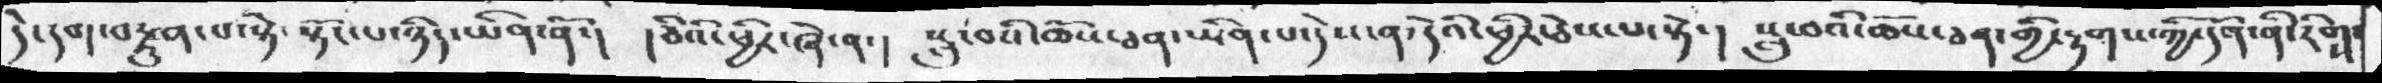དེ་དག་བསྫུན་པ་སྟེ་སྟོང་པ་ཉིད་ཡིན་ནོ་།   ། ཅིའི་ཕྱིར་ཞེ་ན་།   སླུ་བའི་ཆོས་ཅན་ཡིན་པ་དེས་ན་དེའི་ཕྱིར་ཅེས་པ་སྟེ་།   སླུ་བའི་ཆོས་ཅན་གྱི་རྟགས་ཀྱི་དོན་ནི་རིགས་
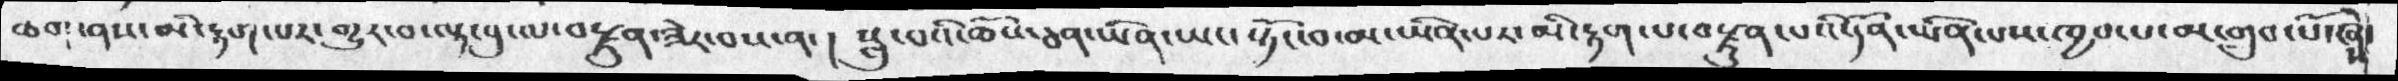ཆག་ནས་མི་རྟག་པར་གྱུར་བ་ལྟ་བུ་ལ་བརྫུན་ཟེར་བས་ན་།   སླུ་བའི་ཆོས་ཅན་ཡིན་ཡང་སྟོང་བ་མ་ཡིན་པར་མི་རྟག་པ་བརྫུན་པའི་དོན་ཡིན་པས་ཁྱབ་པ་མ་གྲུབ་པོ་ཞེས་
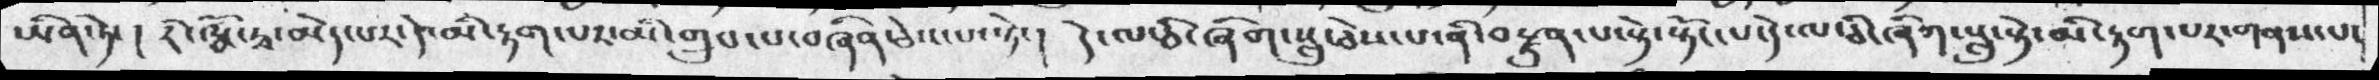ཡིན་ཏེ་  ། རི་ལྕོ་རྭ་མེད་པར་དེ་མི་རྟག་པར་མི་གྲུབ་པ་བཞིན་ཅེས་པ་སྟེ་།   དེ་ལ་ཅི་ཞིག་སྲུ་ཅེས་པ་ནི་བརྗུན་པ་སྟེ་སྟོང་པ་དེ་ལ་ཅི་ཞིག་སླུ་སྟེ་མི་རྟག་པར་གནས་པར་
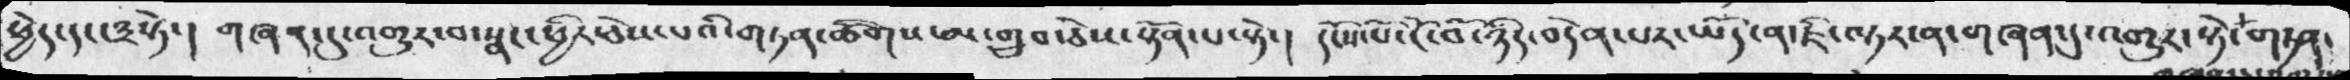ཕྱེད་དང་༣སྟེ་།   གཞན་དུ་འགྱུར་བ་སྣང་ཕྱིར་ཅེས་པའི་གཏན་ཚིགས་མ་གྲུབ་ཅེས་སྟོན་པ་སྟ་།   དངོས་པོ་ངོ་བོ་ཉིད་བདེན་པར་ཡོད་ན་ཇི་ལྟར་ན་གཞན་དུ་འགྱུར་སྟེ་གཏན་
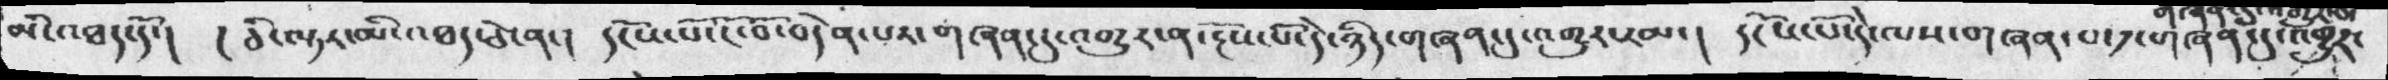མི་འཐད་དོ་།   ། ཅི་ལྟར་མི་འཐད་ཅེ་ན་།   དངོས་པོ་ངོ་བོ་བདེན་པར་གཞན་དུ་འགྱུར་ན་རྔོས་པོ་དེ་ཉིད་གཞན་དུ་འགྱུར་རམ་།   དངོས་པོ་དེ་ལས་གཞན་པ་༡་གཞན་དུ་འགྱུར་
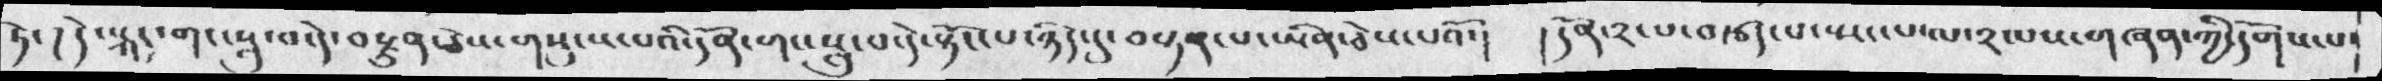ཏེ་ ། དེ་སྐད་གང་སླུ་བ་དེ་བརྫུན་ཅེས་གསུངས་པའི་དོན་གང་སླུ་བ་དེ་སྟོང་པ་ཉིད་དུ་བསྟན་པ་ཡིན་ཅེས་པའོ་།  ། དོན་༢་པ་བརྩད་པ་སྤང་པ་ལ་༢་པས་གཞན་ཀྱི་དགོས་པ་།
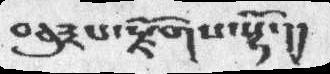བཅུ༣པ་རྫོགས་སྷོ་།།
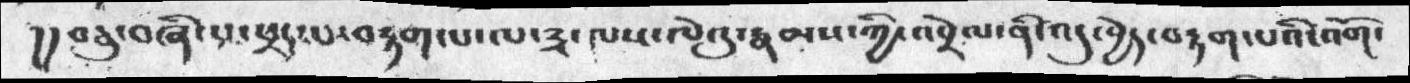།།བཅུ་བཞི་པ་ཕྲད་པ་བརྟག་པ་ལ་༣་ལས་ལེའུ་རྣམས་ཀྱི་འབྲེལ་ནི་འདུ་བྱེད་བརྟག་པའི་འོག་
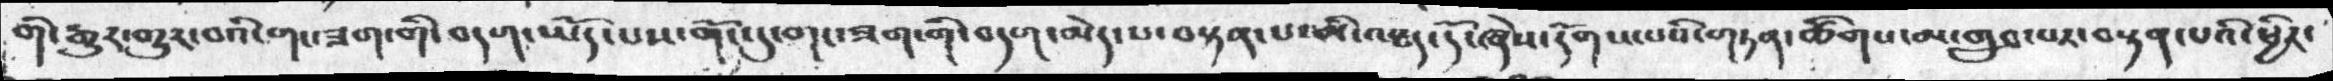གི་རྒྱུར་གྱུར་བའི་གང་ཟག་གོ་བདག་ཡོད་པས་གོང་དུ་གང་ཟག་གི་བདག་མེད་པ་བསྟན་པ་མི་འཐད་དོ་ཞེས་དོགས་པའི་གཏན་ཚིགས་མ་གྲུབ་པར་བསྟན་པའི་ཕྱིར་
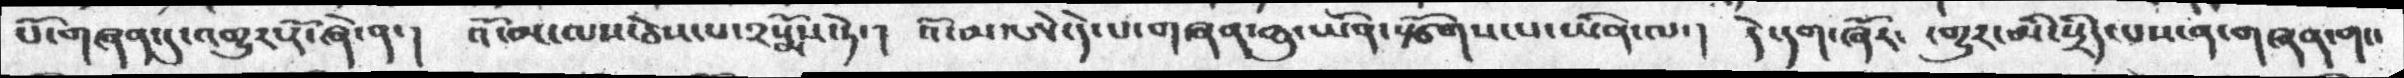པོ་གཞན་དུ་འགྱུར་རོ་ཞེ་ན་།  འོ་མ་ལས་ཅེས་པ་༢སྨོས་ཏེ་།  འོ་མ་ཨེ་དེ་པ་གཞན་ཆུ་ཡོན་སྩོགས་པ་ཡིན་ལ་། དེ་དག་ཞོར་ ་གྱུར་མི་སྲིད་པས་ན་གཞན་གང་
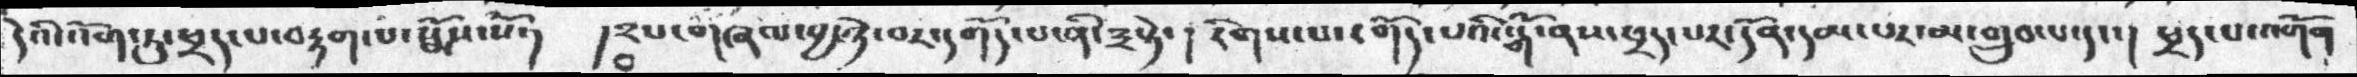དེའི་འོག་ཏུ་ཕྲད་པ་བརྟག་པ་སྨོས་སོ་།   །༢པ་གཞལ་བྱ་ཉེ་བར་དགོད་པ་ནི་༣སྟེ་།   རིགས་པ་དགོད་པའི་སྒོ་ནས་ཕྲད་པར་དོན་དམ་པར་མ་གྲུབ་པ་དང་།  ཕྲད་པ་འགོག་
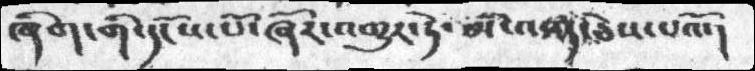ཞིག་གི་དངོས་པོ་ཞོར་འགྱུར་ཏེ་མི་འབད་ཅེས་པའོ་།
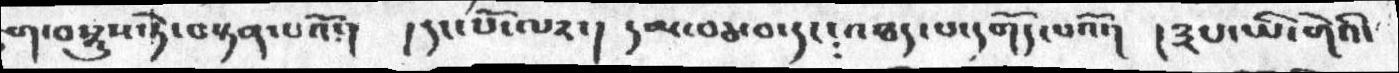ག་བསྡུས་ཏེ་བསྟན་པའོ་། །དང་པོ་ལ༢་། དམ་བཅ་བ་དང༴འཐད་པ་དགོད་པའོ་། །༣པ་ཡི་གེའི་
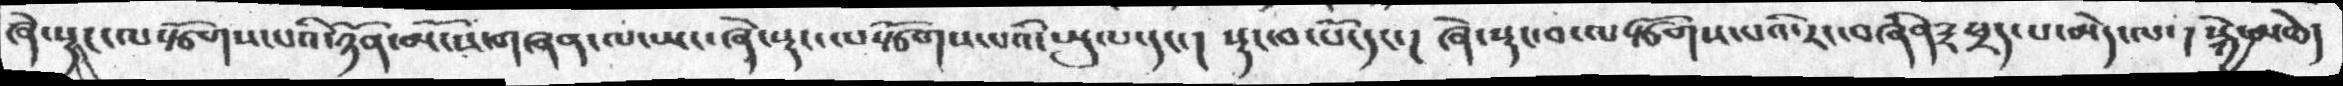ཞེ་སྡང་ལསྩོགས་པའི་ཉོན་མོངས་གཞན་ལ་ཡང་ཞེ་སྡང་ལསྩོགས་པའི་ཡུལ་དང་། སྡང་བ་པོ་དང་། ཞེ་སྡང་བ་ལསྩོགས་པའི་རང་བཞིན༣ཕྲད་པ་མེད་ལ་། སྐྱེ་མཆེད
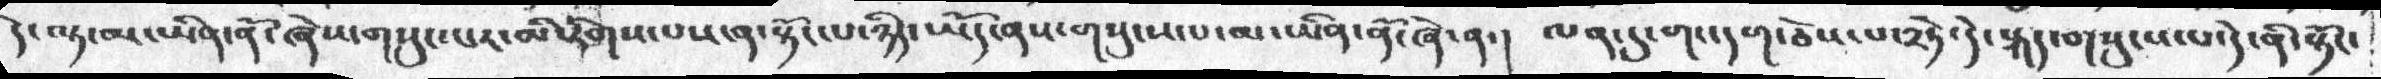དེ་ལྟ་མ་ཡིན་ནོ་ཞེས་གསུང་པར་མི་རིགས་པས་ན་སྟོང་པ་ཉིད་ཡོད་ནས་གསུངས་པ་མ་ཡིན་ནོ་ཞེ་ན་། ལན་དུ་གང་དག་ཅེས་པ་༢ཏེ་དེ་སྐད་གསུངས་པ་དེ་ནི་སྟོང་
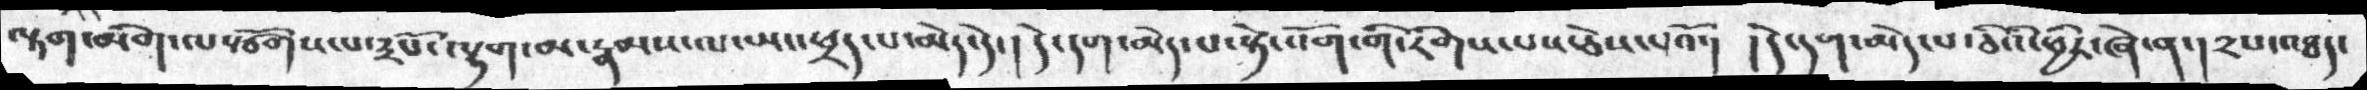ལྟག་མིག་ལསྩོགས་པ་༣པོ་ལྷག་མ་རྣམས་ལ་ཡང་ཕྲད་པ་མེད་དེ་། དེ་དག་མེད་པ་སྟེང་འོག་གི་རིགས་པས་ཅེས་པའོ་།  །དེ་དག་མེད་པ་ཅིའི་ཕྱིར་ཞེ་ན་། ༢པ་འཐད་
